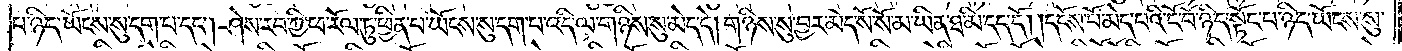པ་ཉིད་ཡོངས་སུ་དག་པ་དང༌། ཤེས་རབ་ཀྱི་ཕ་རོལ་ཏུ་ཕྱིན་པ་ཡོངས་སུ་དག་པ་འདི་ལ་གཉིས་སུ་མེད་དེ། གཉིས་སུ་བྱར་མེད་སོ་སོ་མ་ཡིན་ཐ་མི་དད་དོ། །དངོས་པོ་མེད་པའི་ངོ་བོ་ཉིད་སྟོང་པ་ཉིད་ཡོངས་སུ་
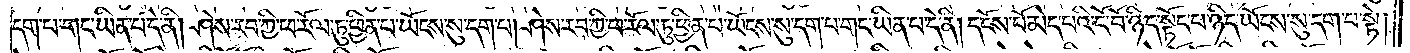དག་པ་གང་ཡིན་པ་དེ་ནི། ཤེས་རབ་ཀྱི་ཕ་རོལ་ཏུ་ཕྱིན་པ་ཡོངས་སུ་དག་པ། ཤེས་རབ་ཀྱི་ཕ་རོལ་ཏུ་ཕྱིན་པ་ཡོངས་སུ་དག་པ་གང་ཡིན་པ་དེ་ནི། དངོས་པོ་མེད་པའི་ངོ་བོ་ཉིད་སྟོང་པ་ཉིད་ཡོངས་སུ་དག་པ་སྟེ།
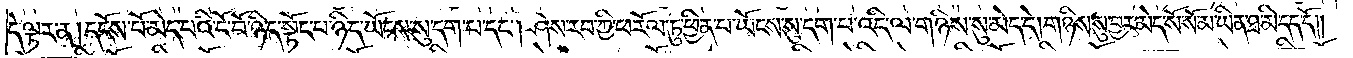དེ་ལྟར་ན། དངོས་པོ་མེད་པའི་ངོ་བོ་ཉིད་སྟོང་བ་ཉིད་ཡོངས་སུ་དག་པ་དང༌། ཤེས་རབ་ཀྱི་ཕ་རོལ་ཏུ་ཕྱིན་པ་ཡོངས་སུ་དག་པ་འདི་ལ་གཉིས་སུ་མེད་དེ། གཉིས་སུ་བྱར་མེད་སོ་སོ་མ་ཡིན་ཐ་མི་དད་དོ༎
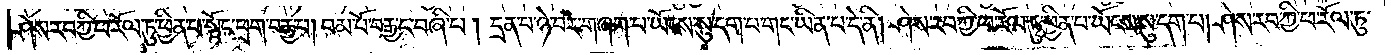ཤེས་རབ་ཀྱི་ཕ་རོལ་ཏུ་ཕྱིན་པ་སྟོང་ཕྲག་བརྒྱ་པ། །བམ་པོ་བརྒྱ་ང་བཞི་པ། །དྲན་པ་ཉེ་བར་གཞག་པ་ཡོངས་སུ་དག་པ་གང་ཡིན་པ་དེ་ནི། ཤེས་རབ་ཀྱི་ཕ་རོལ་ཏུ་ཕྱིན་པ་ཡོངས་སུ་དག་པ། ཤེས་རབ་ཀྱི་ཕ་རོལ་ཏུ་
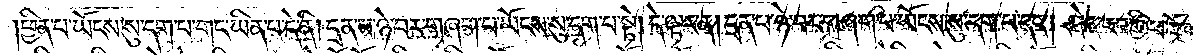ཕྱིན་པ་ཡོངས་སུ་དག་པ་གང་ཡིན་པ་དེ་ནི། དྲན་པ་ཉེ་བར་གཞག་པ་ཡོངས་སུ་དག་པ་སྟེ། དེ་ལྟར་ན། དྲན་པ་ཉེ་བར་གཞག་པ་ཡོངས་སུ་དག་པ་དང༌། ཤེས་རབ་ཀྱི་ཕ་རོལ་
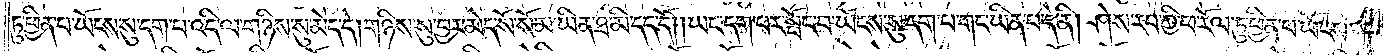ཏུ་ཕྱིན་པ་ཡོངས་སུ་དག་པ་འདི་ལ་གཉིས་སུ་མེད་དེ། གཉིས་སུ་བྱར་མེད་སོ་སོ་མ་ཡིན་ཐ་མི་དད་དོ། །ཡང་དག་པར་སྤོང་བ་ཡོངས་སུ་དག་པ་གང་ཡིན་པ་དེ་ནི། ཤེས་རབ་ཀྱི་ཕ་རོལ་ཏུ་ཕྱིན་པ་ཡོངས་
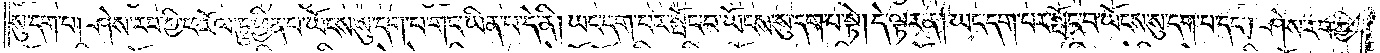སུ་དག་པ། ཤེས་རབ་ཀྱི་ཕ་རོལ་ཏུ་ཕྱིན་པ་ཡོངས་སུ་དག་པ་གང་ཡིན་པ་དེ་ནི། ཡང་དག་པར་སྤོང་བ་ཡོངས་སུ་དག་པ་སྟེ། དེ་ལྟར་ན། ཡང་དག་པར་སྤོང་བ་ཡོངས་སུ་དག་པ་དང༌། ཤེས་རབ་ཀྱི་
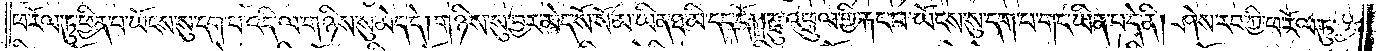ཕ་རོལ་ཏུ་ཕྱིན་པ་ཡོངས་སུ་དག་པ་འདི་ལ་གཉིས་སུ་མེད་དེ། གཉིས་སུ་བྱར་མེད་སོ་སོ་མ་ཡིན་ཐ་མི་དད་དོ། །རྫུ་འཕྲུལ་གྱི་རྐང་པ་ཡོངས་སུ་དག་པ་གང་ཡིན་པ་དེ་ནི། ཤེས་རབ་ཀྱི་ཕ་རོལ་ཏུ་ཕྱིན
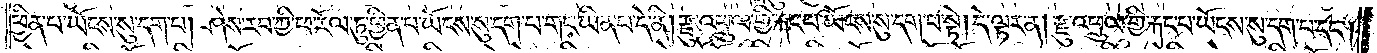ཕྱིན་པ་ཡོངས་སུ་དག་པ། ཤེས་རབ་ཀྱི་ཕ་རོལ་ཏུ་ཕྱིན་པ་ཡོངས་སུ་དག་པ་གང་ཡིན་པ་དེ་ནི། རྫུ་འཕྲུལ་གྱི་རྐང་པ་ཡོངས་སུ་དག་པ་སྟེ། དེ་ལྟར་ན། རྫུ་འཕྲུལ་གྱི་རྐང་པ་ཡོངས་སུ་དག་པ་དང༌།
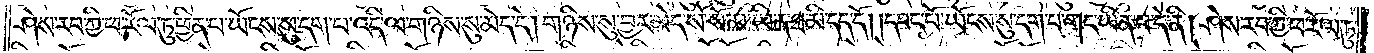ཤེས་རབ་ཀྱི་ཕ་རོལ་ཏུ་ཕྱིན་པ་ཡོངས་སུ་དག་པ་འདི་ལ་གཉིས་སུ་མེད་དེ། གཉིས་སུ་བྱར་མེད་སོ་སོ་མ་ཡིན་ཐ་མི་དད་དོ། །དབང་པོ་ཡོངས་སུ་དག་པ་གང་ཡིན་པ་དེ་ནི། ཤེས་རབ་ཀྱི་ཕ་རོལ་ཏུ་
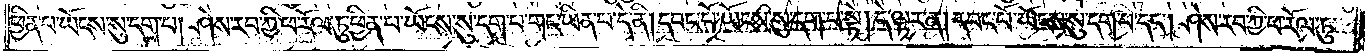ཕྱིན་པ་ཡོངས་སུ་དག་པ། ཤེས་རབ་ཀྱི་ཕ་རོལ་ཏུ་ཕྱིན་པ་ཡོངས་སུ་དག་པ་གང་ཡིན་པ་དེ་ནི། དབང་པོ་ཡོངས་སུ་དག་པ་སྟེ། དེ་ལྟར་ན། དབང་པོ་ཡོངས་སུ་དག་པ་དང༌། ཤེས་རབ་ཀྱི་ཕ་རོལ་ཏུ་
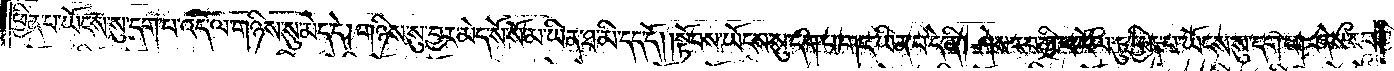ཕྱིན་པ་ཡོངས་སུ་དག་པ་འདི་ལ་གཉིས་སུ་མེད་དེ། གཉིས་སུ་བྱར་མེད་སོ་སོ་མ་ཡིན་ཐ་མི་དད་དོ། །སྟོབས་ཡོངས་སུ་དག་པ་གང་ཡིན་པ་དེ་ནི། ཤེས་རབ་ཀྱི་ཕ་རོལ་ཏུ་ཕྱིན་པ་ཡོངས་སུ་དག་པ། ཤེས་རབ་
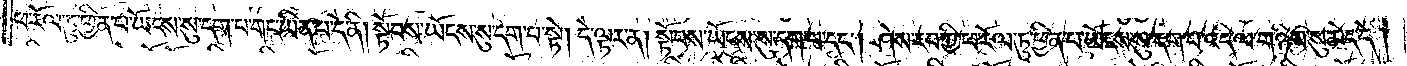ཕ་རོལ་ཏུ་ཕྱིན་པ་ཡོངས་སུ་དག་པ་གང་ཡིན་པ་དེ་ནི། སྟོབས་ཡོངས་སུ་དག་པ་སྟེ། དེ་ལྟར་ན། སྟོབས་ཡོངས་སུ་དག་པ་དང༌། ཤེས་རབ་ཀྱི་ཕ་རོལ་ཏུ་ཕྱིན་པ་ཡོངས་སུ་དག་པ་འདི་ལ་གཉིས་སུ་མེད་དེ།
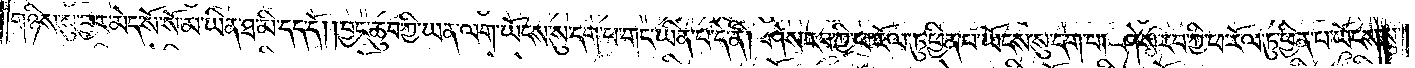གཉིས་སུ་བྱར་མེད་སོ་སོ་མ་ཡིན་ཐ་མི་དད་དོ། །བྱང་ཆུབ་ཀྱི་ཡན་ལག་ཡོངས་སུ་དག་པ་གང་ཡིན་པ་དེ་ནི། ཤེས་རབ་ཀྱི་ཕ་རོལ་ཏུ་ཕྱིན་པ་ཡོངས་སུ་དག་པ། ཤེས་རབ་ཀྱི་ཕ་རོལ་ཏུ་ཕྱིན་པ་ཡོངས་སུ་
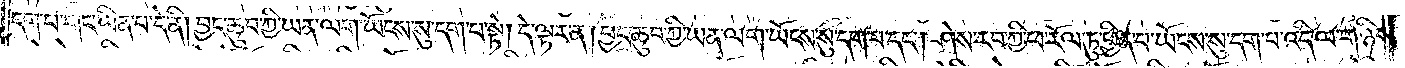དག་པ་གང་ཡིན་པ་དེ་ནི། བྱང་ཆུབ་ཀྱི་ཡན་ལག་ཡོངས་སུ་དག་པ་སྟེ། དེ་ལྟར་ན། བྱང་ཆུབ་ཀྱི་ཡན་ལག་ཡོངས་སུ་དག་པ་དང༌། ཤེས་རབ་ཀྱི་ཕ་རོལ་ཏུ་ཕྱིན་པ་ཡོངས་སུ་དག་པ་འདི་ལ་གཉིས་
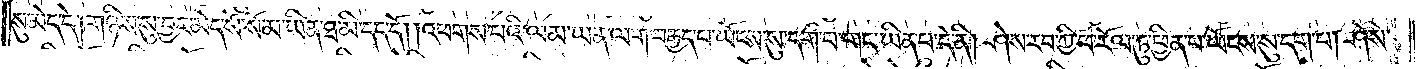སུ་མེད་དེ། གཉིས་སུ་བྱར་མེད་སོ་སོ་མ་ཡིན་ཐ་མི་དད་དོ། །འཕགས་པའི་ལམ་ཡན་ལག་བརྒྱད་པ་ཡོངས་སུ་དག་པ་གང་ཡིན་པ་དེ་ནི། ཤེས་རབ་ཀྱི་ཕ་རོལ་ཏུ་ཕྱིན་པ་ཡོངས་སུ་དག་པ། ཤེས་
